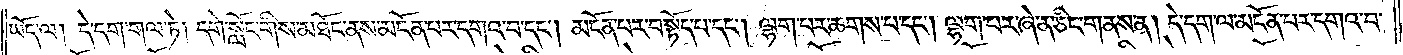ཡོད་ལ། དེ་དག་གལ་ཏེ། དགེ་སློང་གིས་མཐོང་ནས་མངོན་པར་དགའ་བ་དང༌། མངོན་པར་བསྟོད་པ་དང༌། ལྷག་པར་ཆགས་པ་དང༌། ལྷག་པར་ཞེན་ཅིང་གནས་ན། དེ་དག་ལ་མངོན་པར་དགའ་བ་
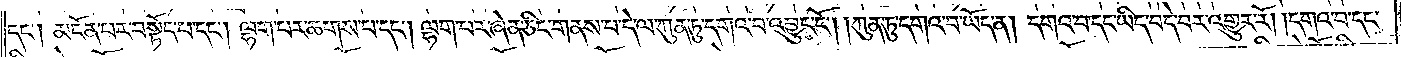དང༌། མངོན་པར་བསྟོད་པ་དང༌། ལྷག་པར་ཆགས་པ་དང༌། ལྷག་པར་ཞེན་ཅིང་གནས་པ་དེ་ལ་ཀུན་ཏུ་དགའ་བ་འབྱུང་ངོ༌། །ཀུན་ཏུ་དགའ་བ་ཡོད་ན། དགའ་བ་དང་ཡིད་བདེ་བར་འགྱུར་རོ། །དགའ་བ་དང་
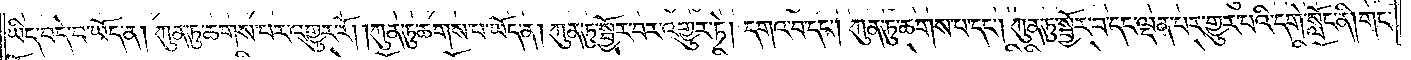ཡིད་བདེ་བ་ཡོད་ན། ཀུན་ཏུ་ཆགས་པར་འགྱུར་རོ། །ཀུན་ཏུ་ཆགས་པ་ཡོད་ན། ཀུན་ཏུ་སྦྱོར་བར་འགྱུར་ཏེ། དགའ་བ་དང༌། ཀུན་ཏུ་ཆགས་པ་དང༌། ཀུན་ཏུ་སྦྱོར་བ་དང་ལྡན་པར་གྱུར་བའི་དགེ་སློང་ནི། གང་
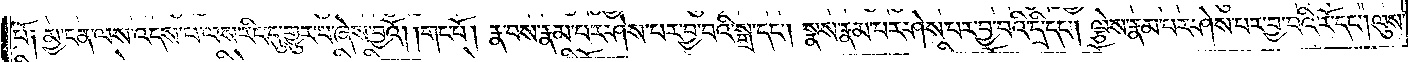པོ༑ མྱ་ངན་ལས་འདས་པ་ལས་རིང་དུ་གྱུར་པ་ཞེས་བྱའོ། །གང་པོ། རྣ་བས་རྣམ་པར་ཤེས་པར་བྱ་བའི་སྒྲ་དང༌། སྣས་རྣམ་པར་ཤེས་པར་བྱ་བའི་དྲི་དང༌། ལྕེས་རྣམ་པར་ཤེས་པར་བྱ་བའི་རོ་དང༌། ལུས་
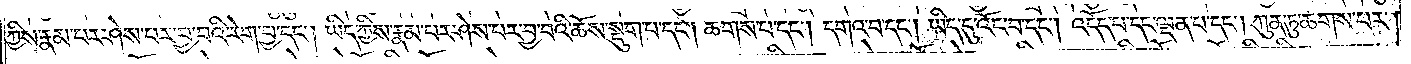ཀྱིས་རྣམ་པར་ཤེས་པར་བྱ་བའི་རེག་བྱ་དང༌། ཡིད་ཀྱིས་རྣམ་པར་ཤེས་པར་བྱ་བའི་ཆོས་སྡུག་པ་དང༌། ཆགས་པ་དང༌། དགའ་བ་དང༌། ཡིད་དུ་འོང་བ་དང༌། འདོད་པ་དང་ལྡན་པ་དང༌། ཀུན་ཏུ་ཆགས་པར་
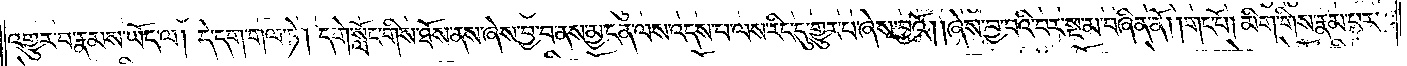འགྱུར་བ་རྣམས་ཡོད་ལ། དེ་དག་གལ་ཏེ། དགེ་སློང་གིས་ཐོས་ནས་ཞེས་བྱ་བ་ནས་མྱ་ངན་ལས་འདས་པ་ལས་རིང་དུ་གྱུར་པ་ཞེས་བྱའོ། །ཞེས་བྱ་བའི་བར་སྔ་མ་བཞིན་ནོ། །གང་པོ། མིག་གིས་རྣམ་པར་
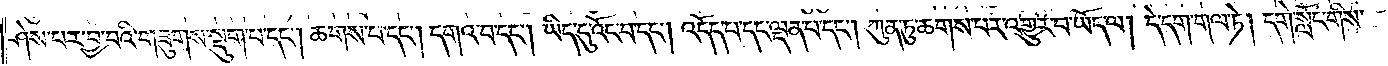ཤེས་པར་བྱ་བའི་གཟུགས་སྡུག་པ་དང༌། ཆགས་པ་དང༌། དགའ་བ་དང༌། ཡིད་དུ་འོང་བ་དང༌། འདོད་པ་དང་ལྡན་པ་དང༌། ཀུན་ཏུ་ཆགས་པར་འགྱུར་བ་ཡོད་ལ། དེ་དག་གལ་ཏེ། དགེ་སློང་གིས་
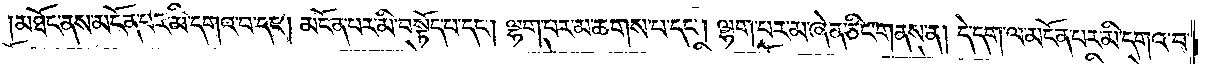མཐོང་ནས་མངོན་པར་མི་དགའ་བ་དང༌། མངོན་པར་མི་བསྟོད་པ་དང༌། ལྷག་པར་མ་ཆགས་པ་དང༌། ལྷག་པར་མ་ཞེན་ཅིང་གནས་ན། དེ་དག་ལ་མངོན་པར་མི་དགའ་བ་
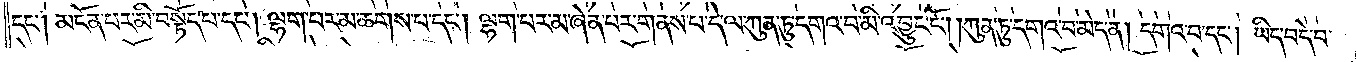དང༌། མངོན་པར་མི་བསྟོད་པ་དང༌། ལྷག་པར་མ་ཆགས་པ་དང༌། ལྷག་པར་མ་ཞེན་པར་གནས་པ་དེ་ལ་ཀུན་ཏུ་དགའ་བ་མི་འབྱུང་ངོ༌། །ཀུན་ཏུ་དགའ་བ་མེད་ན། དགའ་བ་དང༌། ཡིད་བདེ་བ་
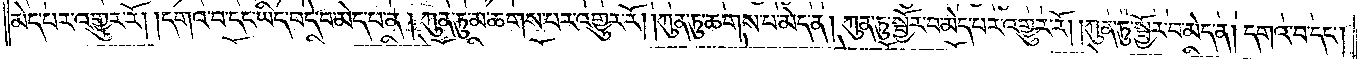མེད་པར་འགྱུར་རོ། །དགའ་བ་དང་ཡིད་བདེ་བ་མེད་པ་ན། ཀུན་ཏུ་མ་ཆགས་པར་འགྱུར་རོ། །ཀུན་ཏུ་ཆགས་པ་མེད་ན། ཀུན་ཏུ་སྦྱོར་བ་མེད་པར་འགྱུར་རོ། །ཀུན་ཏུ་སྦྱོར་བ་མེད་ན། དགའ་བ་དང༌།
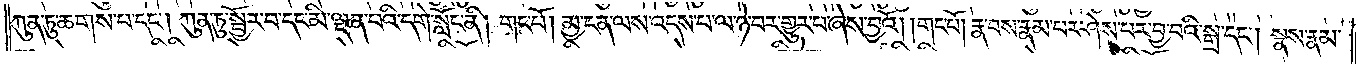ཀུན་ཏུ་ཆགས་པ་དང༌། ཀུན་ཏུ་སྦྱོར་བ་དང་མི་ལྡན་པའི་དགེ་སློང་ནི། གང་པོ། མྱ་ངན་ལས་འདས་པ་ལ་ཉེ་བར་གྱུར་པ་ཞེས་བྱའོ། །གང་པོ། རྣ་བས་རྣམ་པར་ཤེས་པར་བྱ་བའི་སྒྲ་དང༌། སྣས་རྣམ་
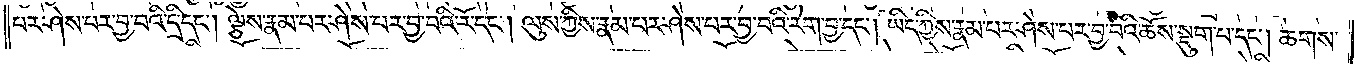པར་ཤེས་པར་བྱ་བའི་དྲི་དང༌། ལྕེས་རྣམ་པར་ཤེས་པར་བྱ་བའི་རོ་དང༌། ལུས་ཀྱིས་རྣམ་པར་ཤེས་པར་བྱ་བའི་རེག་བྱ་དང༌། ཡིད་ཀྱིས་རྣམ་པར་ཤེས་པར་བྱ་བའི་ཆོས་སྡུག་པ་དང༌། ཆགས་
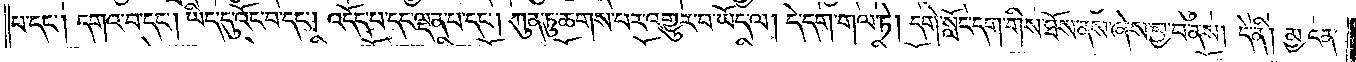པ་དང༌། དགའ་བ་དང༌། ཡིད་དུ་འོང་བ་དང༌། འདོད་པ་དང་ལྡན་པ་དང༌། ཀུན་ཏུ་ཆགས་པར་འགྱུར་བ་ཡོད་ལ། དེ་དག་གལ་ཏེ། དགེ་སློང་དག་གིས་ཐོས་ནས་ཞེས་བྱ་བ་ནས། དེ་ནི། མྱ་ངན་
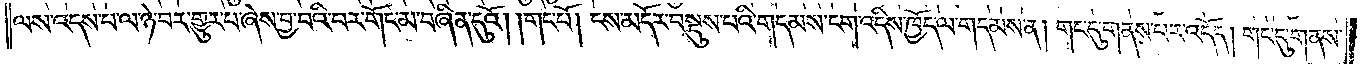ལས་འདས་པ་ལ་ཉེ་བར་གྱུར་པ་ཞེས་བྱ་བའི་བར་གོང་མ་བཞིན་དུའོ། །གང་པོ། ངས་མདོར་བསྡུས་པའི་གདམས་ངག་འདིས་ཁྱོད་ལ་གདམས་ན། གང་དུ་གནས་པར་འདོད། གང་དུ་གནས་
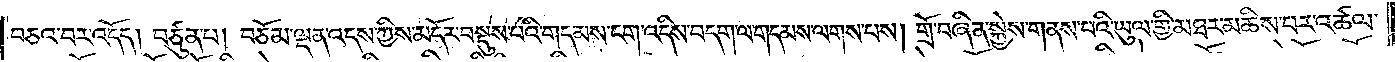བཅའ་བར་འདོད། བཙུན་པ། བཅོམ་ལྡན་འདས་ཀྱིས་མདོར་བསྡུས་པའི་གདམས་ངག་འདིས་བདག་ལ་གདམས་ལགས་པས། གྲོ་བཞིན་སྐྱེས་གནས་པའི་ཡུལ་གྱི་མཐར་མཆིས་པར་འཚལ་
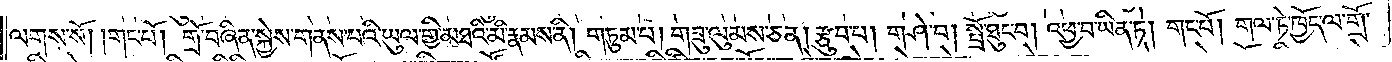ལགས་སོ། །གང་པོ། གྲོ་བཞིན་སྐྱེས་གནས་པའི་ཡུལ་གྱི་མཐའི་མི་རྣམས་ནི། གཏུམ་པ། གཟུ་ལུམས་ཅན། རྩུབ་པ། གཤེ་བ། སྤྲོ་ཐུང་བ། འཕྱ་བ་ཡིན་ཏེ། གང་པོ། གལ་ཏེ་ཁྱོད་ལ་གྲོ་
